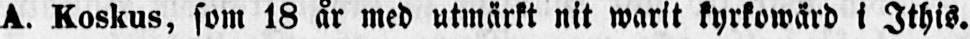A. Koskus, som 18 år med utmärkt nit warit kyrkowärd i Ithis.
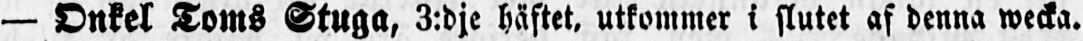— Onkel Toms Stuga, 3:dje häftet, utkommer i slutet af denna wecka.
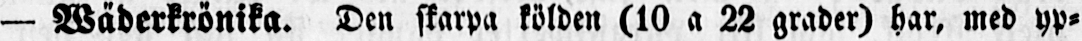— Wäderkrönika. Den skarpa kölden (10 a 22 grader) har, med yp-
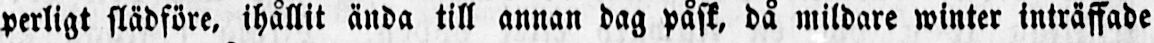perligt slädföre, ihållit ända till annan dag påsk, då mildare winter inträffade
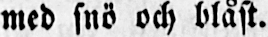med snö och blåst.
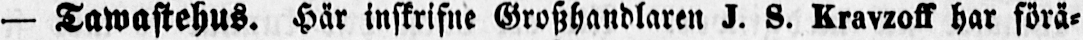— Tawastehus. Här inskrifne Groszhandlaren J. S. Kravzoff har förä-
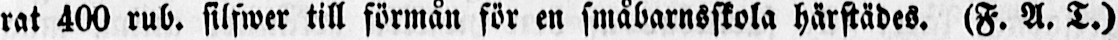rat 400 rub. silfwer till förmån för en småbarnsskola härstädes. (F. A. T.)
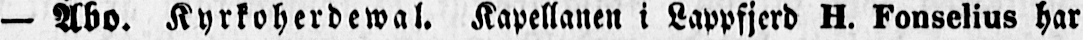— Åbo. Kyrkoherdewal. Kapellanen i Lappfjerd H. Fonselius har
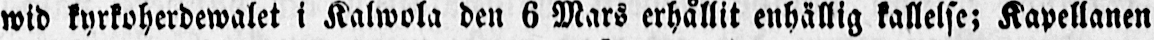wid kyrkoherdewalet i Kalwola den 6 Mars erhållit enhällig kallelse; Kapellanen
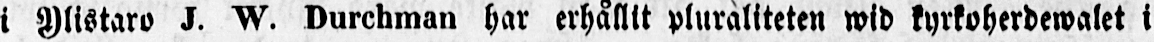i Ylistaro J. W. Durchman har erhållit pluraliteten wid kyrkoherdewalet i
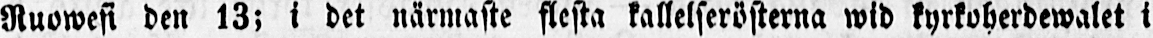Nuowesi den 13; i det närmaste flesta kallelserösterna wid kyrkoherdewalet i
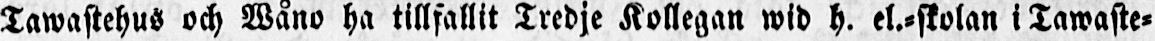Tawastehus och Wåno ha tillfallit Tredje Kollegan wid h. el.-skolan i Tawaste-
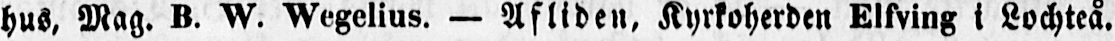hus, Mag. B. W. Wegelius. — Afliden, Kyrkoherden Elfving i Lochteå.
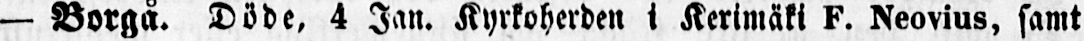— Borgå. Döde, 4 Jan. Kyrkoherden i Kerimäki F. Neovius, samt
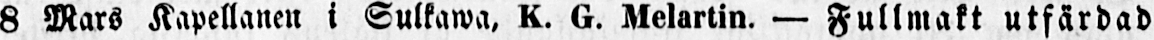8 Mars Kapellanen i Sulkawa, K. G. Melartin. — Fullmakt utfärdad
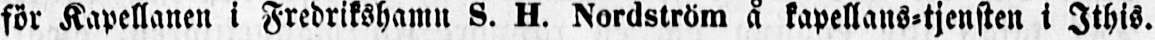för Kapellanen i Fredrikshamn S. H. Nordström å kapellans-tjensten i Ithis.
